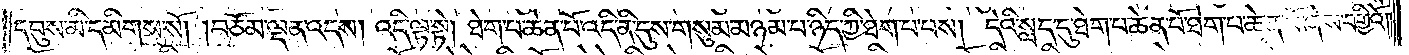དབུས་མི་དམིགས་སོ། །བཅོམ་ལྡན་འདས། འདི་ལྟ་སྟེ། ཐེག་པ་ཆེན་པོ་འདི་ནི་དུས་གསུམ་མཉམ་པ་ཉིད་ཀྱི་ཐེག་པ་པས། དེའི་སླད་དུ་ཐེག་པ་ཆེན་པོ་ཐེག་པ་ཆེན་པོ་ཞེས་བགྱིའོ། །
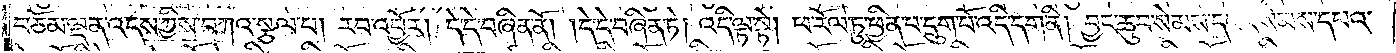བཅོམ་ལྡན་འདས་ཀྱིས་བཀའ་སྩལ་པ། རབ་འབྱོར། དེ་དེ་བཞིན་ནོ། །དེ་དེ་བཞིན་ཏེ། འདི་ལྟ་སྟེ། ཕ་རོལ་ཏུ་ཕྱིན་པ་དྲུག་པོ་འདི་དག་ནི། བྱང་ཆུབ་སེམས་དཔའ་སེམས་དཔའ་
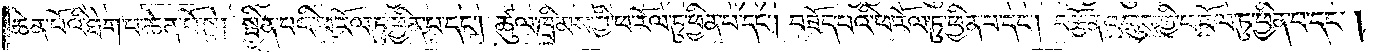ཆེན་པོའི་ཐེག་པ་ཆེན་པོ་སྟེ། སྦྱིན་པའི་ཕ་རོལ་ཏུ་ཕྱིན་པ་དང༌། ཚུལ་ཁྲིམས་ཀྱི་ཕ་རོལ་ཏུ་ཕྱིན་པ་དང༌། བཟོད་པའི་ཕ་རོལ་ཏུ་ཕྱིན་པ་དང༌། བརྩོན་འགྲུས་ཀྱི་ཕ་རོལ་ཏུ་ཕྱིན་པ་དང༌།
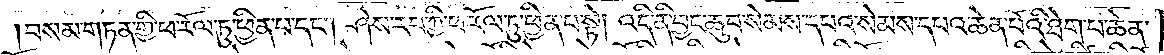བསམ་གཏན་གྱི་ཕ་རོལ་ཏུ་ཕྱིན་པ་དང༌། ཤེས་རབ་ཀྱི་ཕ་རོལ་ཏུ་ཕྱིན་པ་སྟེ། འདི་ནི་བྱང་ཆུབ་སེམས་དཔའ་སེམས་དཔའ་ཆེན་པོའི་ཐེག་པ་ཆེན་
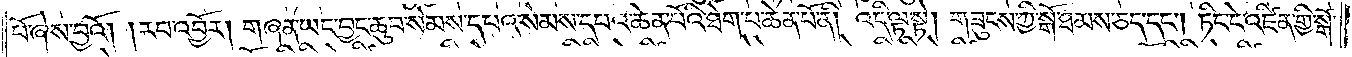པོ་ཞེས་བྱའོ། །རབ་འབྱོར། གཞན་ཡང་བྱང་ཆུབ་སེམས་དཔའ་སེམས་དཔའ་ཆེན་པོའི་ཐེག་པ་ཆེན་པོ་ནི། འདི་ལྟ་སྟེ། གཟུངས་ཀྱི་སྒོ་ཐམས་ཅད་དང༌། ཏིང་ངེ་འཛིན་གྱི་སྒོ་
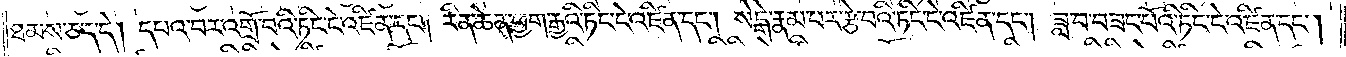ཐམས་ཅད་དེ། དཔའ་བར་འགྲོ་བའི་ཏིང་ངེ་འཛིན་དང༌། རིན་ཆེན་ཕྱག་རྒྱའི་ཏིང་ངེ་འཛིན་དང༌། སེངྒེ་རྣམ་པར་རྩེ་བའི་ཏིང་ངེ་འཛིན་དང༌། ཟླ་བ་བཟང་པོའི་ཏིང་ངེ་འཛིན་དང༌།
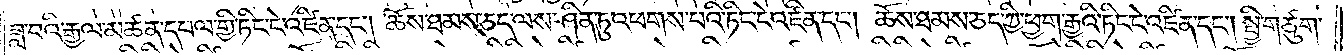ཟླ་བའི་རྒྱལ་མཚན་དཔལ་གྱི་ཏིང་ངེ་འཛིན་དང༌། ཆོས་ཐམས་ཅད་ལས་ཤིན་ཏུ་འཕགས་པའི་ཏིང་ངེ་འཛིན་དང༌། ཆོས་ཐམས་ཅད་ཀྱི་ཕྱག་རྒྱའི་ཏིང་ངེ་འཛིན་དང༌། སྤྱི་གཙུག་
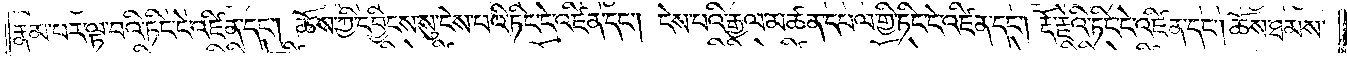རྣམ་པར་ལྟ་བའི་ཏིང་ངེ་འཛིན་དང༌། ཆོས་ཀྱི་དབྱིངས་སུ་ངེས་པའི་ཏིང་ངེ་འཛིན་དང༌། ངེས་པའི་རྒྱལ་མཚན་དཔལ་གྱི་ཏིང་ངེ་འཛིན་དང༌། རྡོ་རྗེའི་ཏིང་ངེ་འཛིན་དང༌། ཆོས་ཐམས་
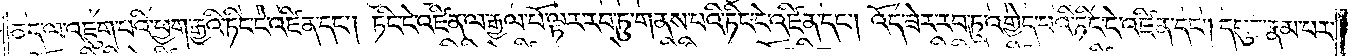ཅད་ལ་འཇུག་པའི་ཕྱག་རྒྱའི་ཏིང་ངེ་འཛིན་དང༌། ཏིང་ངེ་འཛིན་ལ་རྒྱལ་པོ་ལྟར་རབ་ཏུ་གནས་པའི་ཏིང་ངེ་འཛིན་དང༌། འོད་ཟེར་རབ་ཏུ་འགྱེད་པའི་ཏིང་ངེ་འཛིན་དང༌། དཔུང་རྣམ་པར་
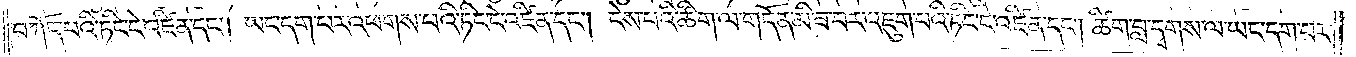བཀོད་པའི་ཏིང་ངེ་འཛིན་དང༌། ཡང་དག་པར་འཕགས་པའི་ཏིང་ངེ་འཛིན་དང༌། ངེས་པའི་ཚིག་ལ་གདོན་མི་ཟ་བར་འཇུག་པའི་ཏིང་ངེ་འཛིན་དང༌། ཚིག་བླ་དྭགས་ལ་ཡང་དག་པར་
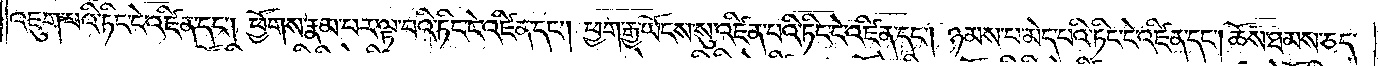འཇུག་པའི་ཏིང་ངེ་འཛིན་དང༌། ཕྱོགས་རྣམ་པར་ལྟ་བའི་ཏིང་ངེ་འཛིན་དང༌། ཕྱག་རྒྱ་ཡོངས་སུ་འཛིན་པའི་ཏིང་ངེ་འཛིན་དང༌། ཉམས་པ་མེད་པའི་ཏིང་ངེ་འཛིན་དང༌། ཆོས་ཐམས་ཅད་
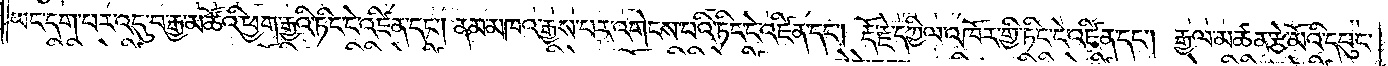ཡང་དག་པར་འདུ་བ་རྒྱ་མཚོའི་ཕྱག་རྒྱའི་ཏིང་ངེ་འཛིན་དང༌། ནམ་མཁའ་རྒྱས་པར་འགེངས་པའི་ཏིང་ངེ་འཛིན་དང༌། རྡོ་རྗེ་དཀྱིལ་འཁོར་གྱི་ཏིང་ངེ་འཛིན་དང༌། རྒྱལ་མཚན་རྩེ་མོའི་དཔུང་
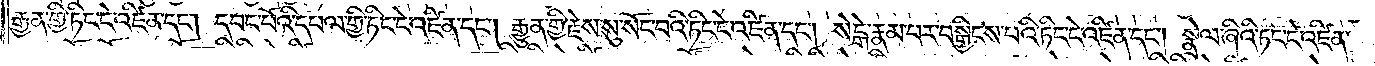རྒྱན་གྱི་ཏིང་ངེ་འཛིན་དང༌། དབང་པོའི་དཔལ་གྱི་ཏིང་ངེ་འཛིན་དང༌། རྒྱུན་གྱི་རྗེས་སུ་སོང་བའི་ཏིང་ངེ་འཛིན་དང༌། སེངྒེ་རྣམ་པར་བསྒྱིངས་པའི་ཏིང་ངེ་འཛིན་དང༌། སྣྲེལ་ཞིའི་ཏིང་ངེ་འཛིན་
